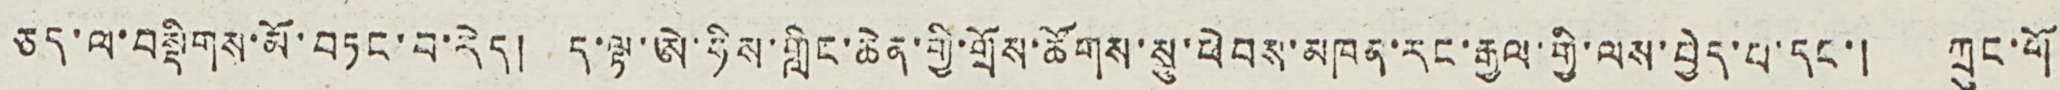ཅད་ལ་བསྡིགས་མོ་བཏང་བ་རེད། ད་ལྟ་ཨེ་ཧིས་གླིང་ཆེན་གྱི་གྲོས་ཚོགས་སུ་ཕེབས་མཁན་རང་རྒྱལ་གྱི་ལས་བྱེད་པ་དང་། ཀྲུང་གོ
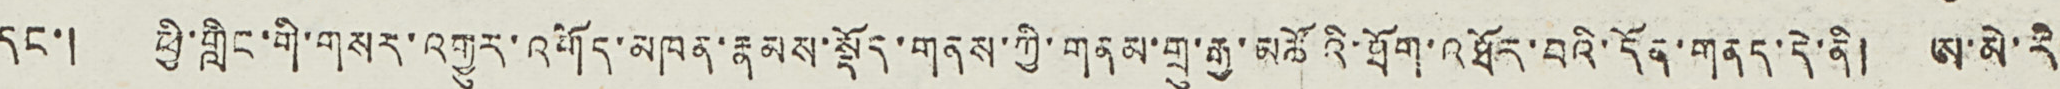དང་། ཕྱི་གླིང་གི་གསར་འགྱུར་འགོད་མཁན་རྣམས་སྡོད་གནས་ཀྱི་གནམ་གྲུ་མཚོའི་ཐོག་འཐོར་བའི་དོན་གནད་དེ་ནི། ཨ་མེ་རི་
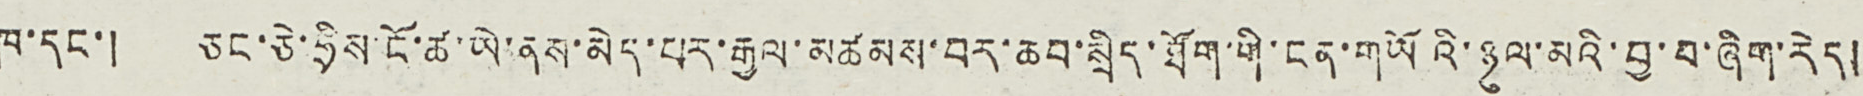ཁ་དང་། ཅང་ཅེ་ཧྲིས་ངོ་ཚ་ཡེ་ནས་མེད་པར་རྒྱལ་མཚམས་བར་ཆབ་སྲིད་ཐོག་གི་ངན་གཡོའི་ཉུལ་མའི་བྱ་བ་ཞིག་རེད།
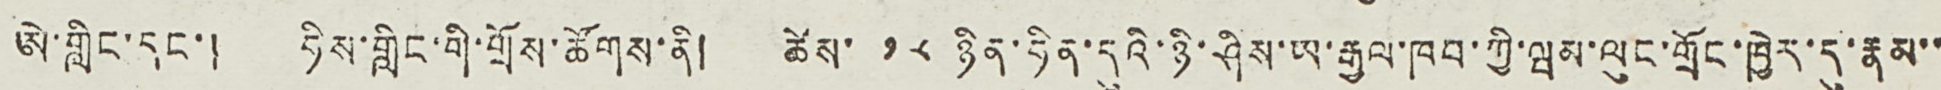ཨེ་གླིང་དང་། ཧིས་གླིང་གི་གྲོས་ཚོགས་ནི། ཚེས་ ༡༨ ཉིན་ཧིན་དུའི་ཉི་ཤིས་ཡ་རྒྱལ་ཁབ་ཀྱི་ཝམ་ལུང་གྲོང་ཁྱེར་དུ་རྣམ་་
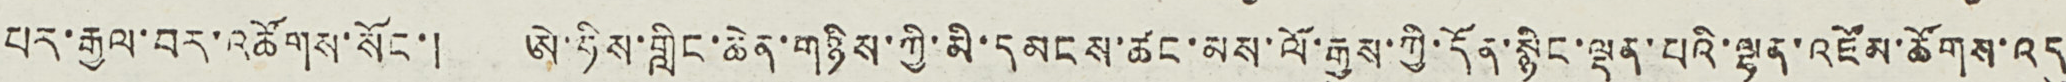པར་རྒྱལ་བར་འཚོགས་སོང་། ཨེ་ཧིས་གླིང་ཆེན་གཉིས་ཀྱི་མི་དམངས་ཚང་མས་ལོ་རྒྱུས་ཀྱི་དོན་སྙིང་ལྡན་པའི་ལྷན་འཛོམ་ཚོགས་འདུ་
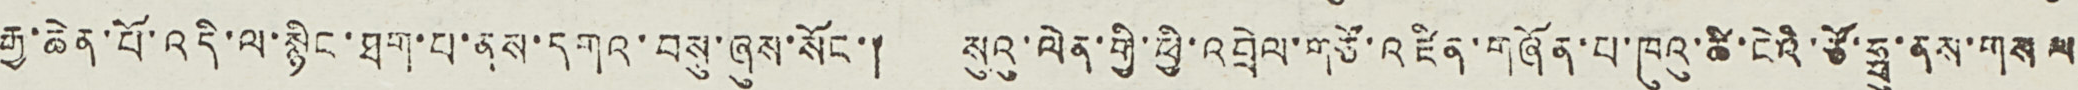རྒྱ་ཆེན་པོ་འདི་ལ་སྙིང་ཐག་པ་ནས་དགའ་བསུ་ཞུས་སོང་། སུའུ་ལེན་གྱི་ཕྱི་འབྲེལ་གཙོ་འཛིན་གཞོན་པ་ཁུའུ་ཚི་ངེའི་ཙོ་ཧྥུ་ནས་གསལ
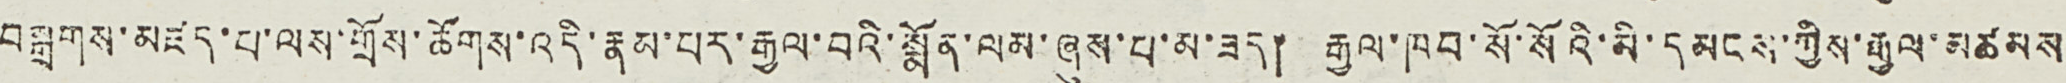བསྒྲགས་མཛད་པ་ལས་གྲོས་ཚོགས་འདི་རྣམ་པར་རྒྱལ་བའི་སྨོན་ལམ་ཞུས་པ་མ་ཟད། རྒྱལ་ཁབ་སོ་སོའི་མི་དམངས་ཀྱིས་རྒྱལ་མཚམས་
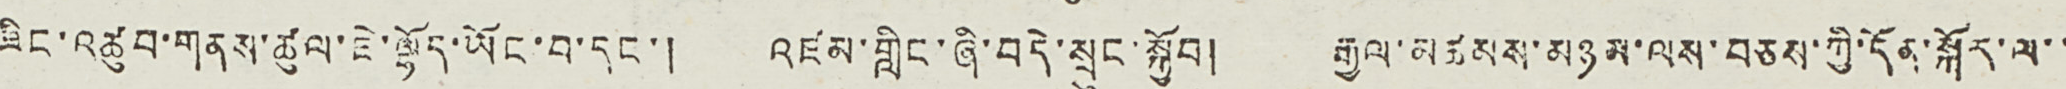ཟིང་འཚུབ་གནས་ཚུལ་ཇེ་ལྷོད་ཡོང་བ་དང་། འཛམ་གླིང་ཞི་བདེ་སྲུང་སྐྱོབ། རྒྱལ་མཚམས་མཉམ་ལས་བཅས་ཀྱི་དོན་སྐོར་ལ་་
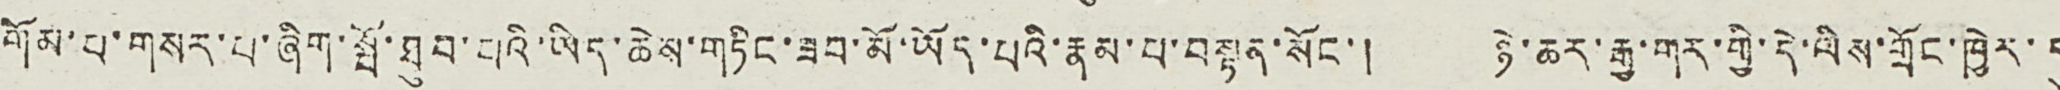གོམ་པ་གསར་པ་ཞིག་སྤོ་ཐུབ་པའི་ཡིད་ཆེས་གཏིང་ཟབ་མོ་ཡོད་པའི་རྣམ་པ་བསྟན་སོང་། ཉེ་ཆར་རྒྱ་གར་གྱི་དེ་ལིས་གྲོང་ཁྱེར་དུ
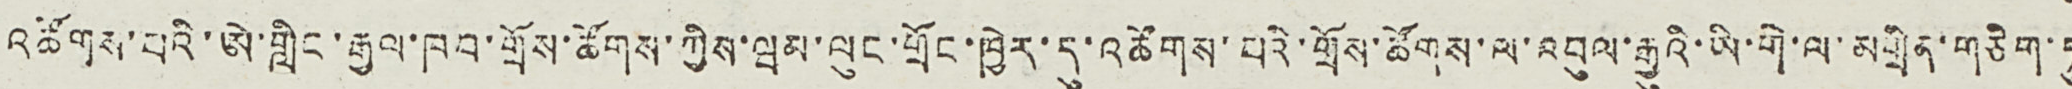འཚོགས་པའི་ཨེ་གླིང་རྒྱལ་ཁབ་གྲོས་ཚོགས་ཀྱིས་ཝམ་ལུང་གྲོང་ཁྱེར་དུ་འཚོགས་པའི་གྲོས་ཚོགས་ལ་འབུལ་རྒྱུའི་ཡི་གེ་ལ་མགྲིན་གཅིག་ཏུ
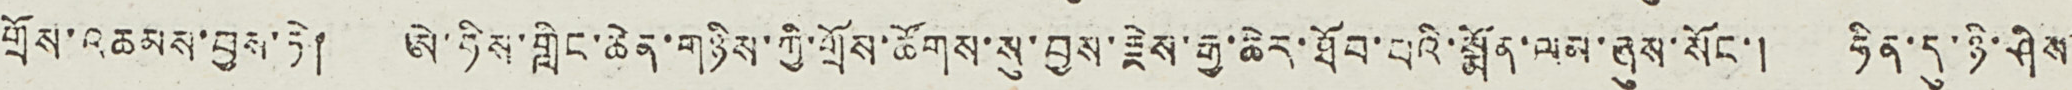གྲོས་འཆམས་བྱས་ཏེ། ཨེ་ཧིས་གླིང་ཆེན་གཉིས་ཀྱི་གྲོས་ཚོགས་སུ་བྱས་རྗེས་རྒྱ་ཆེར་ཐོབ་པའི་སྨོན་ལམ་ཞུས་སོང་། ཧིན་དུ་ཉི་ཤིས་
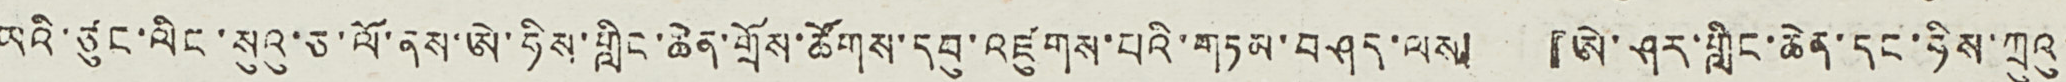ཡའི་ཙུང་ལིང་སུའུ་ཅ་ལོ་ནས་ཨེ་ཧིས་གླིང་ཆེན་གྲོས་ཚོགས་དབུ་འཛུགས་པའི་གཏམ་བཤད་ལས། 『ཨེ་ཤར་གླིང་ཆེན་དང་ཧིས་ཀྲུའུ་
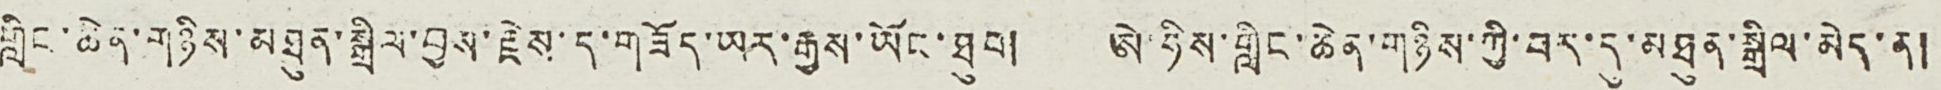གླིང་ཆེན་གཉིས་མཐུན་སྒྲིལ་བྱས་རྗེས་ད་གཟོད་ཡར་རྒྱས་ཡོང་ཐུབ། ཨེ་ཧིས་གླིང་ཆེན་གཉིས་ཀྱི་བར་དུ་མཐུན་སྒྲིལ་མེད་ན།
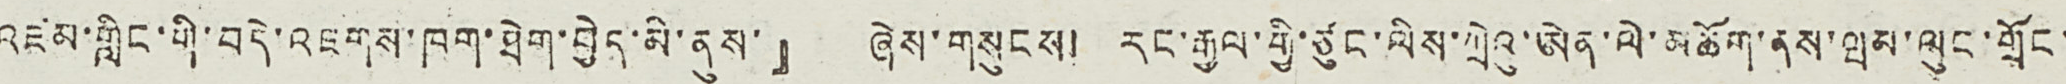འཛམ་གླིང་གི་བདེ་འཇགས་ཁག་ཐེག་བྱེད་མི་ནུས་』 ཞེས་གསུངས། རང་རྒྱལ་གྱི་ཙུང་ལིས་ཀྲེའུ་ཨེན་ལེ་མཆོག་ནས་ཝམ་ལུང་གྲོང་
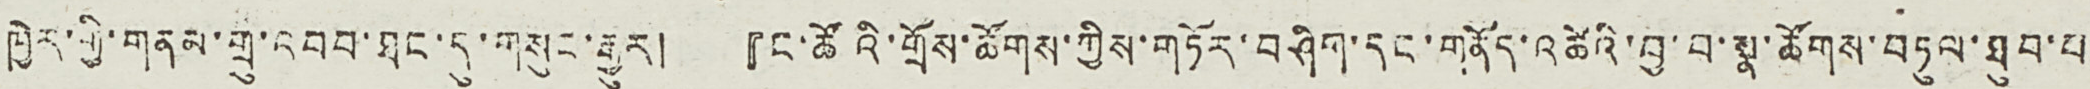ཁྱེར་གྱི་གནམ་གྲུ་འབབ་ཐང་དུ་གསུང་རྒྱུར། 『ང་ཚོའི་གྲོས་ཚོགས་ཀྱིས་གཏོར་བཤིག་དང་གནོད་འཚེའི་བྱ་བ་སྣ་ཚོགས་བཏུལ་ཐུབ་པ
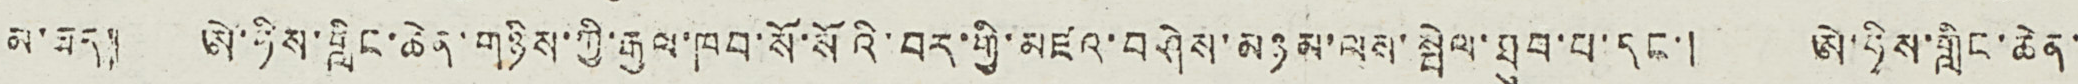མ་ཟད། ཨེ་ཧིས་གླིང་ཆེན་གཉིས་ཀྱི་རྒྱལ་ཁབ་སོ་སོའི་བར་གྱི་མཛའ་བཤེས་མཉམ་ལས་སྤེལ་ཐུབ་པ་དང་། ཨེ་ཧིས་གླིང་ཆེན་
